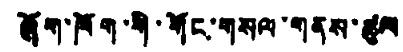ཞོག་ཁོག་གི་གོང་གསལ་གནས་ཚུལ
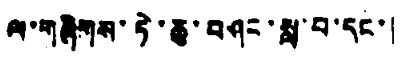ལ་གཞིགས་ཏེ་ཆུ་བཤང་སླ་བ་དང་།
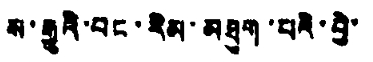ས་རྒྱུའི་བང་རིམ་མཐུག་པའི་བྱེ་
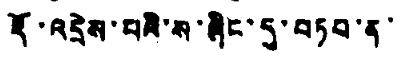རྡོ་འདྲེས་པའི་ས་ཞིང་དུ་བཏབ་ན་
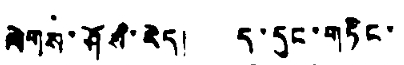ལེགས་ཤོས་རེད། ད་དུང་གཏིང་
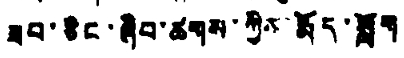ཟབ་ཅིང་ཞིབ་ཚགས་ཀྱིས་རྨོད་སློག
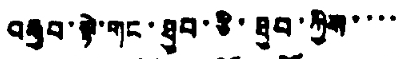བརྒྱབ་སྟེ་གང་ཐུབ་ཅི་ཐུབ་ཀྱིས་་་་
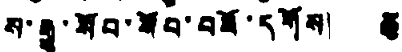ས་རྒྱུ་སོབ་སོབ་བཟོ་དགོས། ཆུ
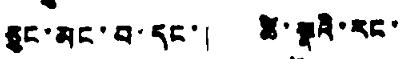ཅུང་མང་བ་དང་། ཚེ་སྣའི་རང་
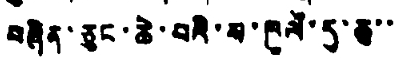བཞིན་ཅུང་ཆེ་བའི་ས་ཁུལ་དུ་ཆུ་་
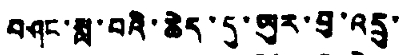བཤང་སླ་བའི་ཆེད་དུ་ཡུར་བུ་འདྲུ་
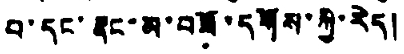བ་དང་རྣང་མ་བཟོ་དགོས་ཀྱི་རེད།
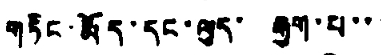གཏིང་རྨོད་དང་ལུད་ རྒྱག་པ་་་་
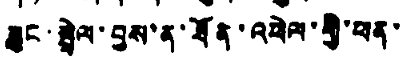ཟུང་སྦྲེལ་བྱས་ན་ཐོན་འཕེལ་གྱི་ཕན་
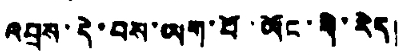འབྲས་དེ་བས་ཡག་པོ་ཡོང་གི་རེད།
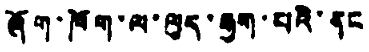ཞོག་ཁོག་ལ་ལུད་རྒྱག་པའི་ནང
